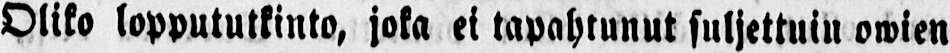Oliko loppututkinto, joka ei tapahtunut suljettuin owien
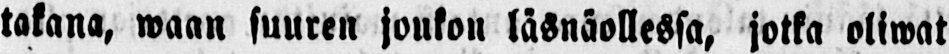takana, waan suuren joukon läsnäollessa, jotka oliwat
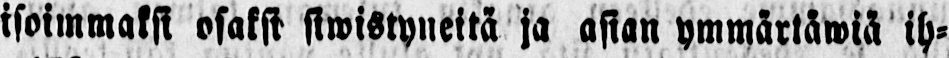isoimmaksi osaksi siwistyneitä ja asian ymmärtäwiä ih-
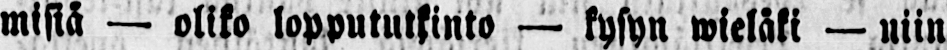misiä — oliko loppututkinto — kysyn wieläki — niin
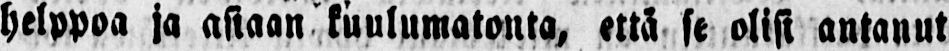helppoa ja asiaan kuulumatonta, että se olisi antanut
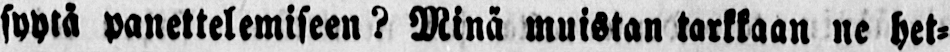syytä panettelemiseen? Minä muistan tarkkaan ne het-
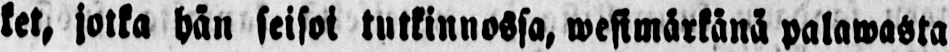ket, jotka hän seisot tutkinnossa, wesimärkänä palawasta
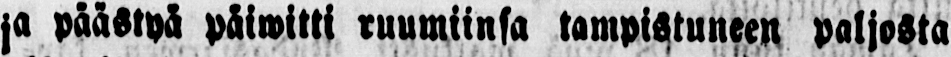ja päästyä päiwitti ruumiinsa tampistuneen paljosta
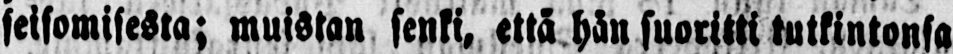seisomisesta; muistan senki, että hän suoritit tutkintonsa
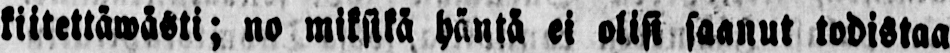kiitettäwästi; no miksikä häntä et olisi saanut todistaa
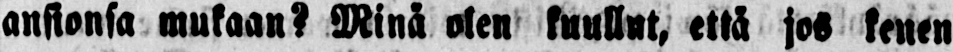ansionsa mukaan? Minä olen kuullut, että jos kenen
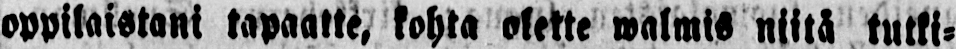oppilaistani tapaatte, kohta olette walmis niitä tutki-
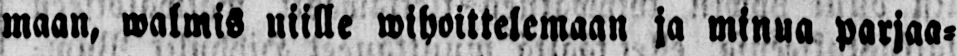maan, walmis niille wihoittelemaan ja minua parjaa,
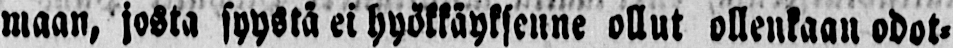maan, josta syystä ei hyökkäyksenne ollut ollenkaan odot-
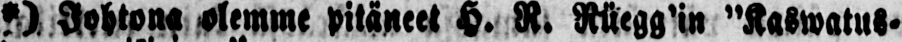*) Johtona olemme pitäneet H. R. Rüegg’in "Kaswatus-
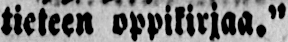tieteen oppikirjaa."
